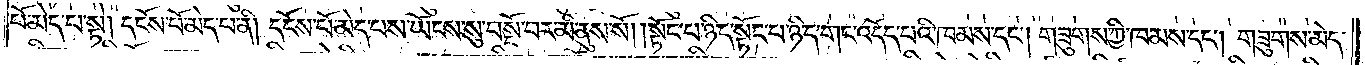པོ་མེད་པ་སྟེ། དངོས་པོ་མེད་པ་ནི། དངོས་པོ་མེད་པས་ཡོངས་སུ་བསྔོ་བར་མི་ནུས་སོ། །སྟོང་པ་ཉིད་སྟོང་པ་ཉིད་གང་འདོད་པའི་ཁམས་དང༌། གཟུགས་ཀྱི་ཁམས་དང༌། གཟུགས་མེད་
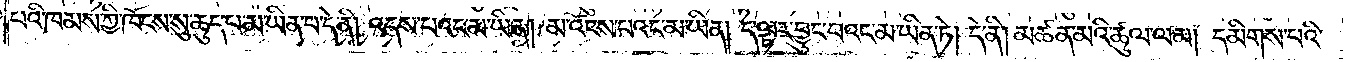པའི་ཁམས་ཀྱི་ཁོངས་སུ་ཆུད་པ་མ་ཡིན་པ་དེ་ནི། འདས་པའང་མ་ཡིན། མ་འོངས་པའང་མ་ཡིན། ད་ལྟར་བྱུང་བའང་མ་ཡིན་ཏེ། དེ་ནི། མཚན་མའི་ཚུལ་ལམ། དམིགས་པའི་
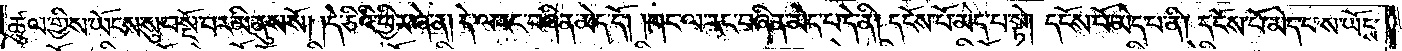ཚུལ་གྱིས་ཡོངས་སུ་བསྔོ་བར་མི་ནུས་སོ། །དེ་ཅིའི་ཕྱིར་ཞེ་ན། དེ་ལ་རང་བཞིན་མེད་དོ། །གང་ལ་རང་བཞིན་མེད་པ་དེ་ནི། དངོས་པོ་མེད་པ་སྟེ། དངོས་པོ་མེད་པ་ནི། དངོས་པོ་མེད་པས་ཡོངས་
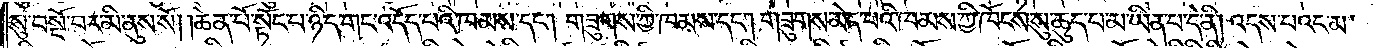སུ་བསྔོ་བར་མི་ནུས་སོ། །ཆེན་པོ་སྟོང་པ་ཉིད་གང་འདོད་པའི་ཁམས་དང༌། གཟུགས་ཀྱི་ཁམས་དང༌། གཟུགས་མེད་པའི་ཁམས་ཀྱི་ཁོངས་སུ་ཆུད་པ་མ་ཡིན་པ་དེ་ནི། འདས་པའང་མ་
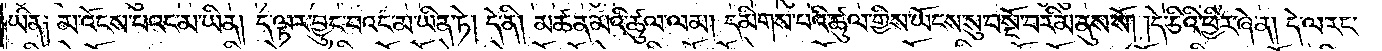ཡིན༑ མ་འོངས་པའང་མ་ཡིན། ད་ལྟར་བྱུང་བའང་མ་ཡིན་ཏེ། དེ་ནི། མཚན་མའི་ཚུལ་ལམ། དམིགས་པའི་ཚུལ་གྱིས་ཡོངས་སུ་བསྔོ་བར་མི་ནུས་སོ། །དེ་ཅིའི་ཕྱིར་ཞེ་ན། དེ་ལ་རང་
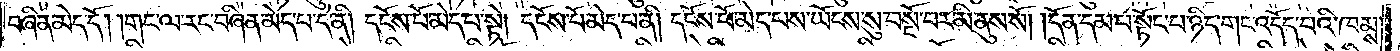བཞིན་མེད་དོ། །གང་ལ་རང་བཞིན་མེད་པ་དེ་ནི། དངོས་པོ་མེད་པ་སྟེ། དངོས་པོ་མེད་པ་ནི། དངོས་པོ་མེད་པས་ཡོངས་སུ་བསྔོ་བར་མི་ནུས་སོ། །དོན་དམ་པ་སྟོང་པ་ཉིད་གང་འདོད་པའི་ཁམས་
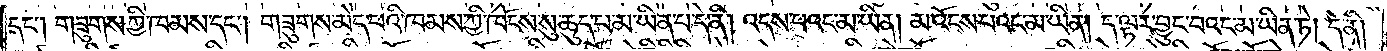དང༌། གཟུགས་ཀྱི་ཁམས་དང༌། གཟུགས་མེད་པའི་ཁམས་ཀྱི་ཁོངས་སུ་ཆུད་པ་མ་ཡིན་པ་དེ་ནི། འདས་པའང་མ་ཡིན། མ་འོངས་པའང་མ་ཡིན། ད་ལྟར་བྱུང་བའང་མ་ཡིན་ཏེ། དེ་ནི།
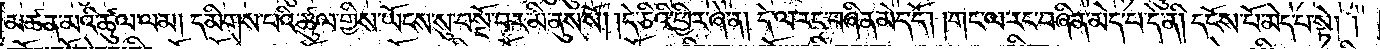མཚན་མའི་ཚུལ་ལམ། དམིགས་པའི་ཚུལ་གྱིས་ཡོངས་སུ་བསྔོ་བར་མི་ནུས་སོ། །དེ་ཅིའི་ཕྱིར་ཞེ་ན། དེ་ལ་རང་བཞིན་མེད་དོ། །གང་ལ་རང་བཞིན་མེད་པ་དེ་ནི། དངོས་པོ་མེད་པ་སྟེ༎
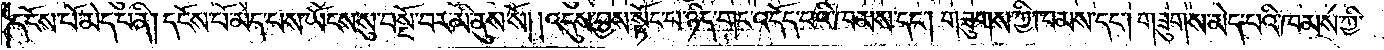དངོས་པོ་མེད་པ་ནི། དངོས་པོ་མེད་པས་ཡོངས་སུ་བསྔོ་བར་མི་ནུས་སོ། །འདུས་བྱས་སྟོང་པ་ཉིད་གང་འདོད་པའི་ཁམས་དང༌། གཟུགས་ཀྱི་ཁམས་དང༌། གཟུགས་མེད་པའི་ཁམས་ཀྱི་
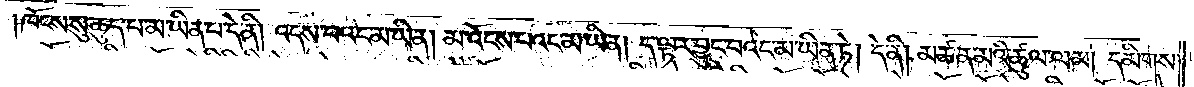ཁོངས་སུ་ཆུད་པ་མ་ཡིན་པ་དེ་ནི། འདས་པའང་མ་ཡིན། མ་འོངས་པའང་མ་ཡིན། ད་ལྟར་བྱུང་བའང་མ་ཡིན་ཏེ། དེ་ནི། མཚན་མའི་ཚུལ་ལམ། དམིགས་
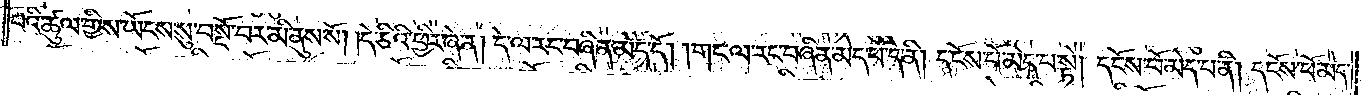པའི་ཚུལ་གྱིས་ཡོངས་སུ་བསྔོ་བར་མི་ནུས་སོ། །དེ་ཅིའི་ཕྱིར་ཞེ་ན། དེ་ལ་རང་བཞིན་མེད་དོ། །གང་ལ་རང་བཞིན་མེད་པ་དེ་ནི། དངོས་པོ་མེད་པ་སྟེ། དངོས་པོ་མེད་པ་ནི། དངོས་པོ་མེད་
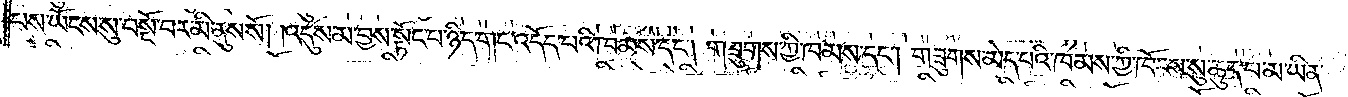པས་ཡོངས་སུ་བསྔོ་བར་མི་ནུས་སོ། །འདུས་མ་བྱས་སྟོང་པ་ཉིད་གང་འདོད་པའི་ཁམས་དང༌། གཟུགས་ཀྱི་ཁམས་དང༌། གཟུགས་མེད་པའི་ཁམས་ཀྱི་ཁོངས་སུ་ཆུད་པ་མ་ཡིན་
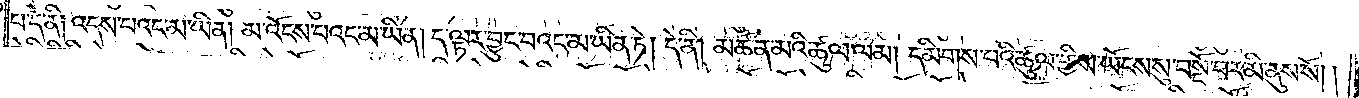པ་དེ་ནི༑ འདས་པའང་མ་ཡིན། མ་འོངས་པའང་མ་ཡིན། ད་ལྟར་བྱུང་བའང་མ་ཡིན་ཏེ། དེ་ནི། མཚན་མའི་ཚུལ་ལམ། དམིགས་པའི་ཚུལ་གྱིས་ཡོངས་སུ་བསྔོ་བར་མི་ནུས་སོ། །
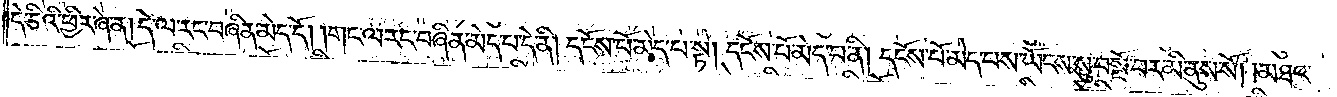དེ་ཅིའི་ཕྱིར་ཞེ་ན། དེ་ལ་རང་བཞིན་མེད་དོ། །གང་ལ་རང་བཞིན་མེད་པ་དེ་ནི། དངོས་པོ་མེད་པ་སྟེ། དངོས་པོ་མེད་པ་ནི། དངོས་པོ་མེད་པས་ཡོངས་སུ་བསྔོ་བར་མི་ནུས་སོ། །མཐའ་
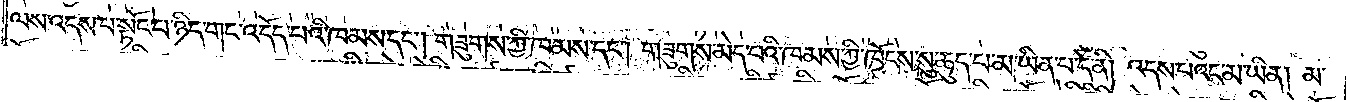ལས་འདས་པ་སྟོང་པ་ཉིད་གང་འདོད་པའི་ཁམས་དང༌། གཟུགས་ཀྱི་ཁམས་དང༌། གཟུགས་མེད་པའི་ཁམས་ཀྱི་ཁོངས་སུ་ཆུད་པ་མ་ཡིན་པ་དེ་ནི། འདས་པའང་མ་ཡིན། མ་
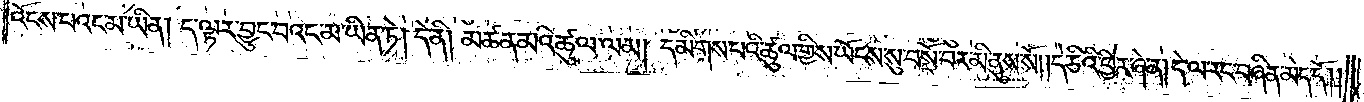འོངས་པའང་མ་ཡིན། ད་ལྟར་བྱུང་བའང་མ་ཡིན་ཏེ། དེ་ནི། མཚན་མའི་ཚུལ་ལམ། དམིགས་པའི་ཚུལ་གྱིས་ཡོངས་སུ་བསྔོ་བར་མི་ནུས་སོ། །དེ་ཅིའི་ཕྱིར་ཞེ་ན། དེ་ལ་རང་བཞིན་མེད་དོ། །
